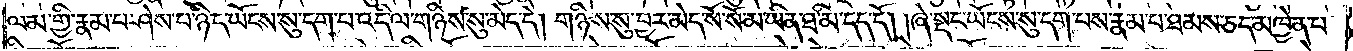ལམ་གྱི་རྣམ་པར་ཤེས་པ་ཉིད་ཡོངས་སུ་དག་པ་འདི་ལ་གཉིས་སུ་མེད་དེ། གཉིས་སུ་བྱར་མེད་སོ་སོ་མ་ཡིན་ཐ་མི་དད་དོ། །ཞེ་སྡང་ཡོངས་སུ་དག་པས་རྣམ་པ་ཐམས་ཅད་མཁྱེན་པ་
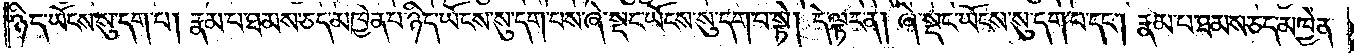ཉིད་ཡོངས་སུ་དག་པ། རྣམ་པ་ཐམས་ཅད་མཁྱེན་པ་ཉིད་ཡོངས་སུ་དག་པས་ཞེ་སྡང་ཡོངས་སུ་དག་པ་སྟེ། དེ་ལྟར་ན། ཞེ་སྡང་ཡོངས་སུ་དག་པ་དང༌། རྣམ་པ་ཐམས་ཅད་མཁྱེན་
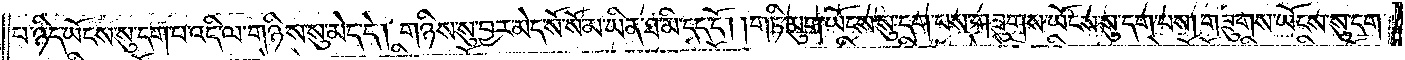པ་ཉིད་ཡོངས་སུ་དག་པ་འདི་ལ་གཉིས་སུ་མེད་དེ། གཉིས་སུ་བྱར་མེད་སོ་སོ་མ་ཡིན་ཐ་མི་དད་དོ། །གཏི་མུག་ཡོངས་སུ་དག་པས་གཟུགས་ཡོངས་སུ་དག་པ། གཟུགས་ཡོངས་སུ་དག་
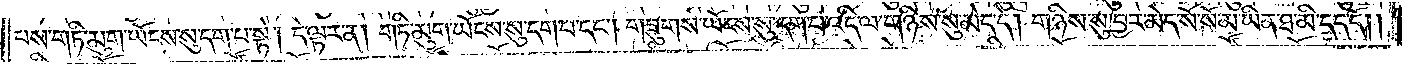པས་གཏི་མུག་ཡོངས་སུ་དག་པ་སྟེ། དེ་ལྟར་ན། གཏི་མུག་ཡོངས་སུ་དག་པ་དང༌། གཟུགས་ཡོངས་སུ་དག་པ་འདི་ལ་གཉིས་སུ་མེད་དེ། གཉིས་སུ་བྱར་མེད་སོ་སོ་མ་ཡིན་ཐ་མི་དད་དོ། །
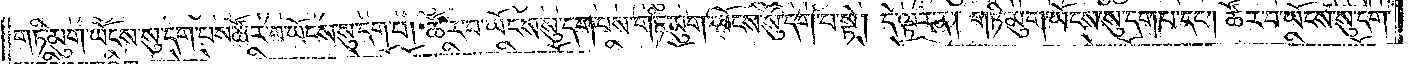གཏི་མུག་ཡོངས་སུ་དག་པས་ཚོར་བ་ཡོངས་སུ་དག་པ། ཚོར་བ་ཡོངས་སུ་དག་པས་གཏི་མུག་ཡོངས་སུ་དག་པ་སྟེ། དེ་ལྟར་ན། གཏི་མུག་ཡོངས་སུ་དག་པ་དང༌། ཚོར་བ་ཡོངས་སུ་དག་
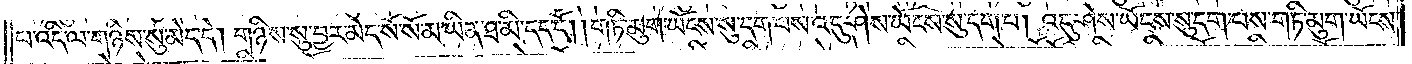པ་འདི་ལ་གཉིས་སུ་མེད་དེ། གཉིས་སུ་བྱར་མེད་སོ་སོ་མ་ཡིན་ཐ་མི་དད་དོ། །གཏི་མུག་ཡོངས་སུ་དག་པས་འདུ་ཤེས་ཡོངས་སུ་དག་པ། འདུ་ཤེས་ཡོངས་སུ་དག་པས་གཏི་མུག་ཡོངས་
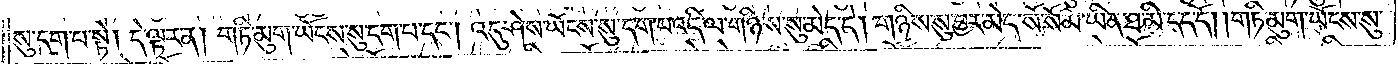སུ་དག་པ་སྟེ། དེ་ལྟར་ན། གཏི་མུག་ཡོངས་སུ་དག་པ་དང༌། འདུ་ཤེས་ཡོངས་སུ་དག་པ་འདི་ལ་གཉིས་སུ་མེད་དེ། གཉིས་སུ་བྱར་མེད་སོ་སོ་མ་ཡིན་ཐ་མི་དད་དོ། །གཏི་མུག་ཡོངས་སུ་
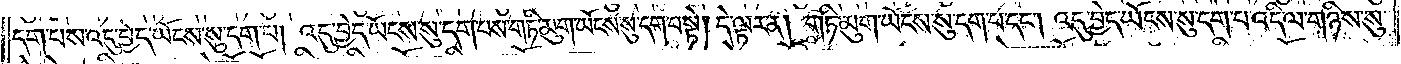དག་པས་འདུ་བྱེད་ཡོངས་སུ་དག་པ། འདུ་བྱེད་ཡོངས་སུ་དག་པས་གཏི་མུག་ཡོངས་སུ་དག་པ་སྟེ། དེ་ལྟར་ན། གཏི་མུག་ཡོངས་སུ་དག་པ་དང༌། འདུ་བྱེད་ཡོངས་སུ་དག་པ་འདི་ལ་གཉིས་སུ་
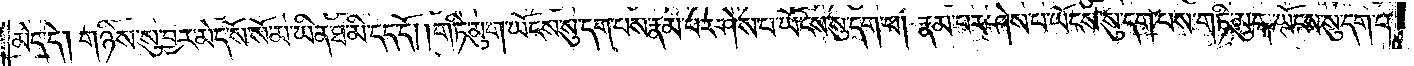མེད་དེ། གཉིས་སུ་བྱར་མེད་སོ་སོ་མ་ཡིན་ཐ་མི་དད་དོ། །གཏི་མུག་ཡོངས་སུ་དག་པས་རྣམ་པར་ཤེས་པ་ཡོངས་སུ་དག་པ། རྣམ་པར་ཤེས་པ་ཡོངས་སུ་དག་པས་གཏི་མུག་ཡོངས་སུ་དག་པ་
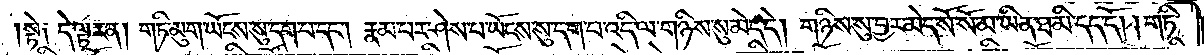སྟེ༑ དེ་ལྟར་ན། གཏི་མུག་ཡོངས་སུ་དག་པ་དང༌། རྣམ་པར་ཤེས་པ་ཡོངས་སུ་དག་པ་འདི་ལ་གཉིས་སུ་མེད་དེ། གཉིས་སུ་བྱར་མེད་སོ་སོ་མ་ཡིན་ཐ་མི་དད་དོ། །གཏི་
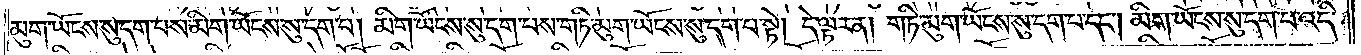མུག་ཡོངས་སུ་དག་པས་མིག་ཡོངས་སུ་དག་པ། མིག་ཡོངས་སུ་དག་པས་གཏི་མུག་ཡོངས་སུ་དག་པ་སྟེ། དེ་ལྟར་ན། གཏི་མུག་ཡོངས་སུ་དག་པ་དང༌། མིག་ཡོངས་སུ་དག་པ་འདི་
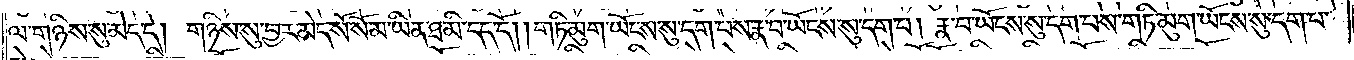ལ་གཉིས་སུ་མེད་དེ། གཉིས་སུ་བྱར་མེད་སོ་སོ་མ་ཡིན་ཐ་མི་དད་དོ། །གཏི་མུག་ཡོངས་སུ་དག་པས་རྣ་བ་ཡོངས་སུ་དག་པ། རྣ་བ་ཡོངས་སུ་དག་པས་གཏི་མུག་ཡོངས་སུ་དག་པ་
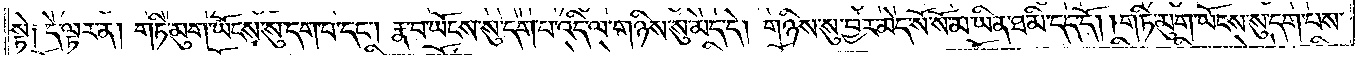སྟེ༑ དེ་ལྟར་ན། གཏི་མུག་ཡོངས་སུ་དག་པ་དང༌། རྣ་བ་ཡོངས་སུ་དག་པ་འདི་ལ་གཉིས་སུ་མེད་དེ། གཉིས་སུ་བྱར་མེད་སོ་སོ་མ་ཡིན་ཐ་མི་དད་དོ། །གཏི་མུག་ཡོངས་སུ་དག་པས་
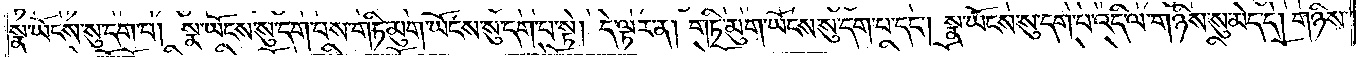སྣ་ཡོངས་སུ་དག་པ། སྣ་ཡོངས་སུ་དག་པས་གཏི་མུག་ཡོངས་སུ་དག་པ་སྟེ། དེ་ལྟར་ན། གཏི་མུག་ཡོངས་སུ་དག་པ་དང༌། སྣ་ཡོངས་སུ་དག་པ་འདི་ལ་གཉིས་སུ་མེད་དེ། གཉིས་
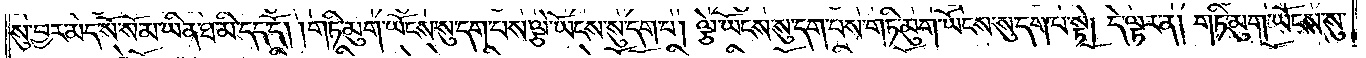སུ་བྱར་མེད་སོ་སོ་མ་ཡིན་ཐ་མི་དད་དོ། །གཏི་མུག་ཡོངས་སུ་དག་པས་ལྕེ་ཡོངས་སུ་དག་པ། ལྕེ་ཡོངས་སུ་དག་པས་གཏི་མུག་ཡོངས་སུ་དག་པ་སྟེ། དེ་ལྟར་ན། གཏི་མུག་ཡོངས་སུ་
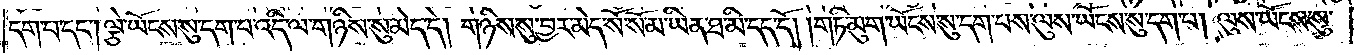དག་པ་དང༌། ལྕེ་ཡོངས་སུ་དག་པ་འདི་ལ་གཉིས་སུ་མེད་དེ། གཉིས་སུ་བྱར་མེད་སོ་སོ་མ་ཡིན་ཐ་མི་དད་དོ། །གཏི་མུག་ཡོངས་སུ་དག་པས་ལུས་ཡོངས་སུ་དག་པ། ལུས་ཡོངས་སུ་
